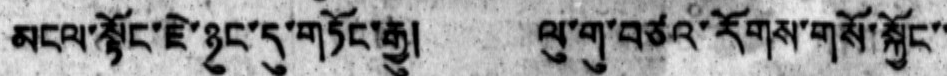མངལ་སྟོང་ཇེ་ཉུང་དུ་གཏོང་རྒྱུ། ལུ་གུ་བཙའ་རོགས་གསོ་སྐྱོང་་
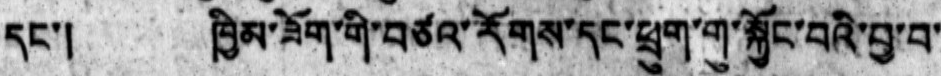དང་། ཁྱིམ་ཟོག་གི་བཙའ་རོགས་དང་ཕྲུག་གུ་སྐྱོང་བའི་བྱ་བ་
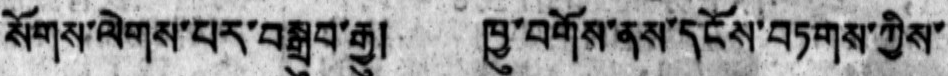སོགས་ལེགས་པར་བསྒྲུབ་རྒྱུ། ཁྱུ་བགོས་ནས་དངོས་བཏགས་ཀྱིས་
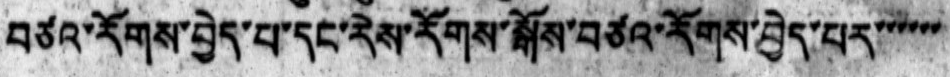བཙའ་རོགས་བྱེད་པ་དང་རེས་རོགས་སྐོས་བཙའ་རོགས་བྱེད་པར་་་་་་
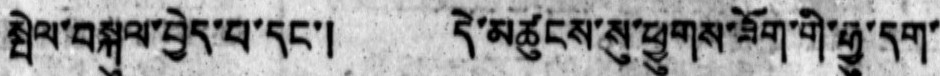སྤེལ་བསྐུལ་བྱེད་པ་དང་།  དེ་མཚུངས་སུ་ཕྱུགས་ཟོག་གི་རྒྱུ་དག་
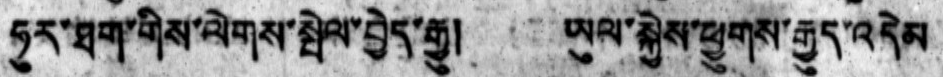ཧུར་ཐག་གིས་ལེགས་སྤེལ་བྱེད་རྒྱུ། ཡུལ་སྐྱེས་ཕྱུགས་རྒྱུད་འདེམ
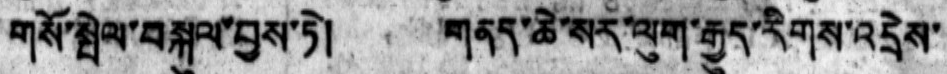གསོ་སྤེལ་བསྐུལ་བྱས་ཏེ། གནད་ཆེ་སར་ལུག་རྒྱུད་རིགས་འདྲེས་
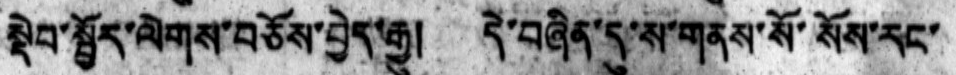སྡེབ་སྤྱོད་ལེགས་བཅོས་བྱེད་རྒྱུ། དེ་བཞིན་དུ་ས་གནས་སོ་སོས་རང་
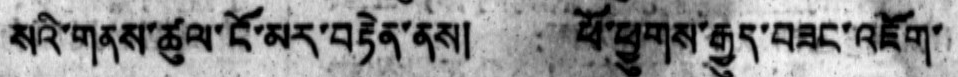སའི་གནས་ཚུལ་ངོ་མར་བརྟེན་ནས། པོ་ཕྱུགས་རྒྱུད་བཟང་འཇོག་
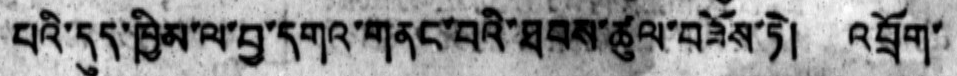པའི་དུད་ཁྱིམ་ལ་བྱ་དགའ་གནང་བའི་ཐབས་ཚུལ་བཟེས་ཏེ། འབྲོག་
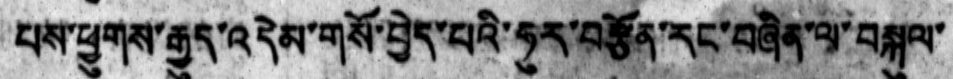པས་ཕྱུགས་རྒྱུད་འདེམ་གསོ་བྱེད་པའི་ཧུར་བརྩོན་རང་བཞིན་ལ་བསྐུལ་
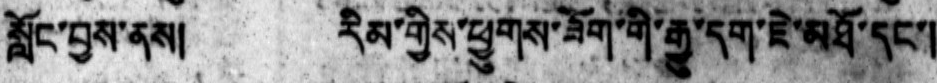སློང་བྱས་ནས།   རིམ་གྱིས་ཕྱུགས་ཟོག་གི་རྒྱུ་དག་ཇེ་མཐོ་དང་།
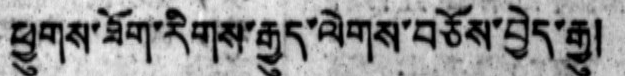ཕྱུགས་ཟོག་རིགས་རྒྱུད་ལེགས་བཅོས་བྱེད་རྒྱུ།
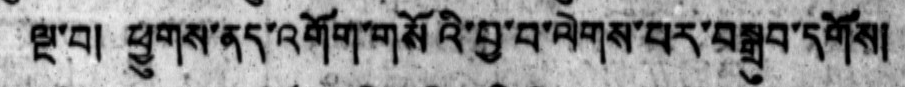ལྔ་བ། ཕྱུགས་ནད་འགོག་གསོའི་བྱ་བ་ལེགས་པར་བསྒྲུབ་དགོས།
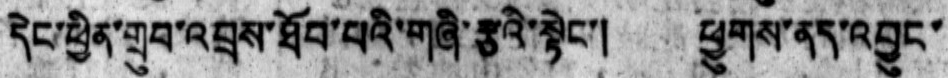དེང་ཕྱིན་གྲུབ་འབྲས་ཐོབ་པའི་གཞི་རྩའི་སྟེང་། ཕྱུགས་ནད་འབྱུང་
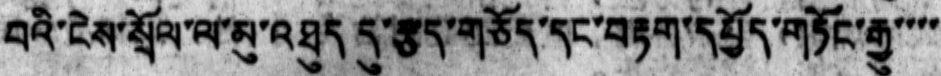བའི་ངེས་སྲོལ་ལ་མུ་འཐུད་དུ་རྩད་གཅོད་དང་བརྟག་དཔྱོད་གཏོང་རྒྱུ་་་་
